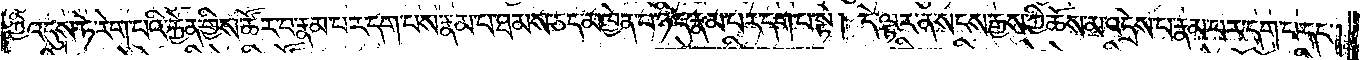ཀྱི་འདུས་ཏེ་རེག་པའི་རྐྱེན་གྱིས་ཚོར་བ་རྣམ་པར་དག་པས་རྣམ་པ་ཐམས་ཅད་མཁྱེན་པ་ཉིད་རྣམ་པར་དག་པ་སྟེ། དེ་ལྟར་ན་སངས་རྒྱས་ཀྱི་ཆོས་མ་འདྲེས་པ་རྣམ་པར་དག་པ་དང༌།
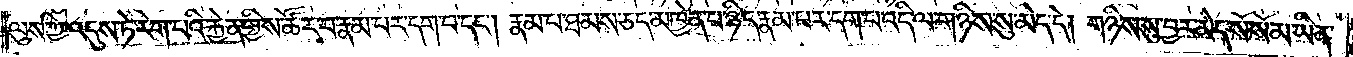ལུས་ཀྱི་འདུས་ཏེ་རེག་པའི་རྐྱེན་གྱིས་ཚོར་བ་རྣམ་པར་དག་པ་དང༌། རྣམ་པ་ཐམས་ཅད་མཁྱེན་པ་ཉིད་རྣམ་པར་དག་པ་འདི་ལ་གཉིས་སུ་མེད་དེ། གཉིས་སུ་བྱར་མེད་སོ་སོ་མ་ཡིན་
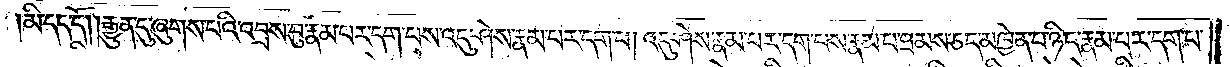མི་དད་དོ། །རྒྱུན་དུ་ཞུགས་པའི་འབྲས་བུ་རྣམ་པར་དག་པས་འདུ་ཤེས་རྣམ་པར་དག་པ། འདུ་ཤེས་རྣམ་པར་དག་པས་རྣམ་པ་ཐམས་ཅད་མཁྱེན་པ་ཉིད་རྣམ་པར་དག་པ་
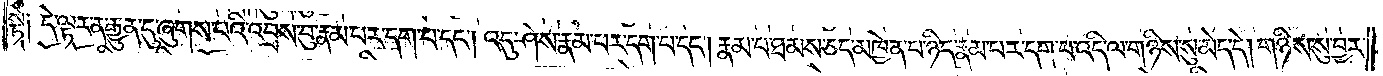སྟེ༑ དེ་ལྟར་ན་རྒྱུན་དུ་ཞུགས་པའི་འབྲས་བུ་རྣམ་པར་དག་པ་དང༌། འདུ་ཤེས་རྣམ་པར་དག་པ་དང༌། རྣམ་པ་ཐམས་ཅད་མཁྱེན་པ་ཉིད་རྣམ་པར་དག་པ་འདི་ལ་གཉིས་སུ་མེད་དེ། གཉིས་སུ་བྱར་
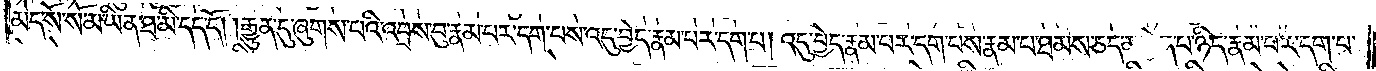མེད་སོ་སོ་མ་ཡིན་ཐ་མི་དད་དོ། །རྒྱུན་དུ་ཞུགས་པའི་འབྲས་བུ་རྣམ་པར་དག་པས་འདུ་བྱེད་རྣམ་པར་དག་པ། འདུ་བྱེད་རྣམ་པར་དག་པས་རྣམ་པ་ཐམས་ཅད་མཁྱེན་པ་ཉིད་རྣམ་པར་དག་པ་
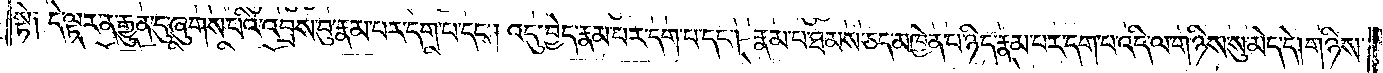སྟེ༑ དེ་ལྟར་ན་རྒྱུན་དུ་ཞུགས་པའི་འབྲས་བུ་རྣམ་པར་དག་པ་དང༌། འདུ་བྱེད་རྣམ་པར་དག་པ་དང༌། རྣམ་པ་ཐམས་ཅད་མཁྱེན་པ་ཉིད་རྣམ་པར་དག་པ་འདི་ལ་གཉིས་སུ་མེད་དེ། གཉིས་
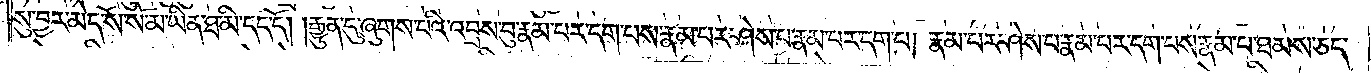སུ་བྱར་མེད་སོ་སོ་མ་ཡིན་ཐ་མི་དད་དོ། །རྒྱུན་དུ་ཞུགས་པའི་འབྲས་བུ་རྣམ་པར་དག་པས་རྣམ་པར་ཤེས་པ་རྣམ་པར་དག་པ། རྣམ་པར་ཤེས་པ་རྣམ་པར་དག་པས་རྣམ་པ་ཐམས་ཅད་
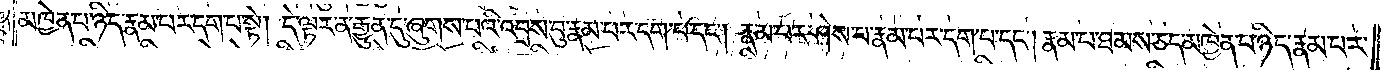མཁྱེན་པ་ཉིད་རྣམ་པར་དག་པ་སྟེ། དེ་ལྟར་ན་རྒྱུན་དུ་ཞུགས་པའི་འབྲས་བུ་རྣམ་པར་དག་པ་དང༌། རྣམ་པར་ཤེས་པ་རྣམ་པར་དག་པ་དང༌། རྣམ་པ་ཐམས་ཅད་མཁྱེན་པ་ཉིད་རྣམ་པར་
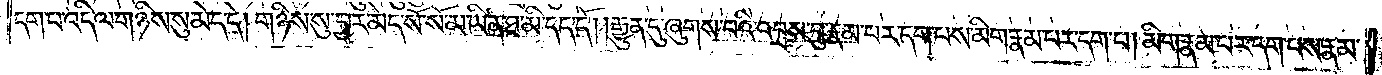དག་པ་འདི་ལ་གཉིས་སུ་མེད་དེ། གཉིས་སུ་བྱར་མེད་སོ་སོ་མ་ཡིན་ཐ་མི་དད་དོ། །རྒྱུན་དུ་ཞུགས་པའི་འབྲས་བུ་རྣམ་པར་དག་པས་མིག་རྣམ་པར་དག་པ། མིག་རྣམ་པར་དག་པས་རྣམ་
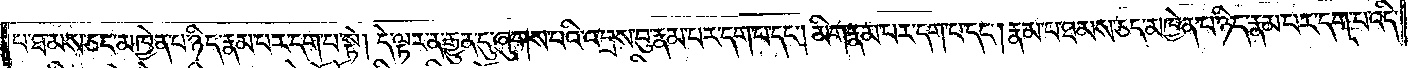པ་ཐམས་ཅད་མཁྱེན་པ་ཉིད་རྣམ་པར་དག་པ་སྟེ། དེ་ལྟར་ན་རྒྱུན་དུ་ཞུགས་པའི་འབྲས་བུ་རྣམ་པར་དག་པ་དང༌། མིག་རྣམ་པར་དག་པ་དང༌། རྣམ་པ་ཐམས་ཅད་མཁྱེན་པ་ཉིད་རྣམ་པར་དག་པ་འདི་
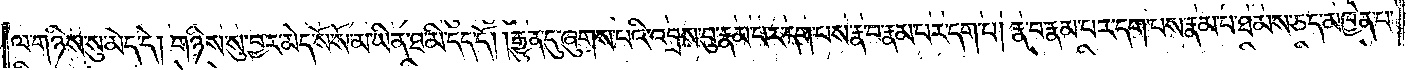ལ་གཉིས་སུ་མེད་དེ། གཉིས་སུ་བྱར་མེད་སོ་སོ་མ་ཡིན་ཐ་མི་དད་དོ། །རྒྱུན་དུ་ཞུགས་པའི་འབྲས་བུ་རྣམ་པར་དག་པས་རྣ་བ་རྣམ་པར་དག་པ། རྣ་བ་རྣམ་པར་དག་པས་རྣམ་པ་ཐམས་ཅད་མཁྱེན་པ་
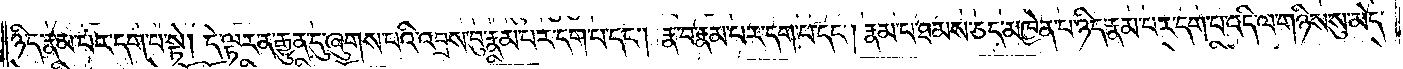ཉིད་རྣམ་པར་དག་པ་སྟེ། དེ་ལྟར་ན་རྒྱུན་དུ་ཞུགས་པའི་འབྲས་བུ་རྣམ་པར་དག་པ་དང༌། རྣ་བ་རྣམ་པར་དག་པ་དང༌། རྣམ་པ་ཐམས་ཅད་མཁྱེན་པ་ཉིད་རྣམ་པར་དག་པ་འདི་ལ་གཉིས་སུ་མེད་
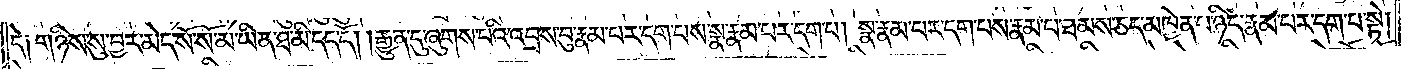དེ༑ གཉིས་སུ་བྱར་མེད་སོ་སོ་མ་ཡིན་ཐ་མི་དད་དོ། །རྒྱུན་དུ་ཞུགས་པའི་འབྲས་བུ་རྣམ་པར་དག་པས་སྣ་རྣམ་པར་དག་པ། སྣ་རྣམ་པར་དག་པས་རྣམ་པ་ཐམས་ཅད་མཁྱེན་པ་ཉིད་རྣམ་པར་དག་པ་སྟེ།
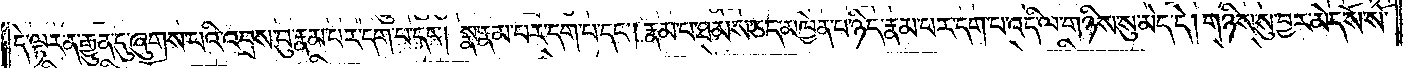དེ་ལྟར་ན་རྒྱུན་དུ་ཞུགས་པའི་འབྲས་བུ་རྣམ་པར་དག་པ་དང༌། སྣ་རྣམ་པར་དག་པ་དང༌། རྣམ་པ་ཐམས་ཅད་མཁྱེན་པ་ཉིད་རྣམ་པར་དག་པ་འདི་ལ་གཉིས་སུ་མེད་དེ། གཉིས་སུ་བྱར་མེད་སོ་སོ་
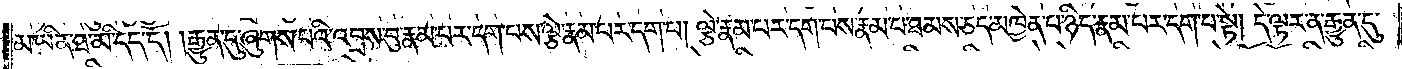མ་ཡིན་ཐ་མི་དད་དོ། །རྒྱུན་དུ་ཞུགས་པའི་འབྲས་བུ་རྣམ་པར་དག་པས་ལྕེ་རྣམ་པར་དག་པ། ལྕེ་རྣམ་པར་དག་པས་རྣམ་པ་ཐམས་ཅད་མཁྱེན་པ་ཉིད་རྣམ་པར་དག་པ་སྟེ། དེ་ལྟར་ན་རྒྱུན་དུ་
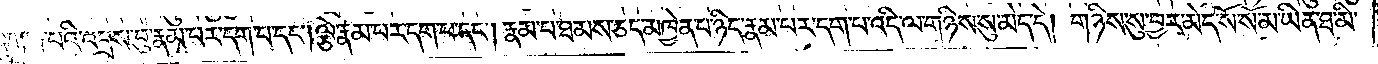ཞུགས་པའི་འབྲས་བུ་རྣམ་པར་དག་པ་དང༌། ལྕེ་རྣམ་པར་དག་པ་དང༌། རྣམ་པ་ཐམས་ཅད་མཁྱེན་པ་ཉིད་རྣམ་པར་དག་པ་འདི་ལ་གཉིས་སུ་མེད་དེ། གཉིས་སུ་བྱར་མེད་སོ་སོ་མ་ཡིན་ཐ་མི་
